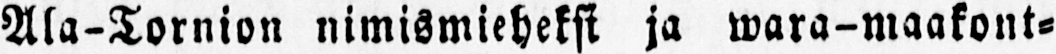Ala-Tornion nimismieheksi ja wara-maakont-
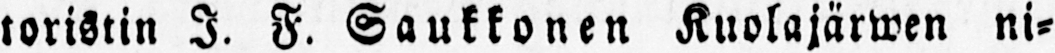toristin I. F. Saukkonen Kuolajärwen ni-
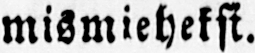mismieheksi.
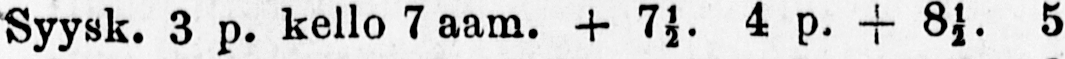Syysk. 3 p. kello 7 aam. + 7½. 4 p.+ 8½. 5
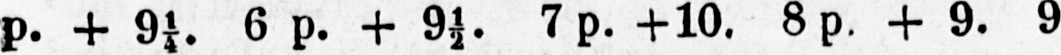p. + 9¼ . 6 p. + 9½. 7 p. + 10. 8 p. + 9. 9
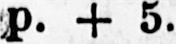p. + 5.
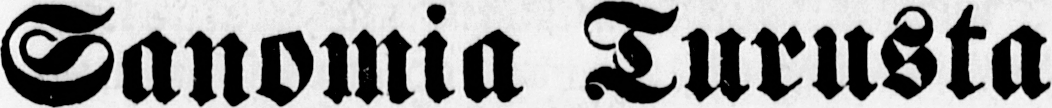Sanomia Turusta
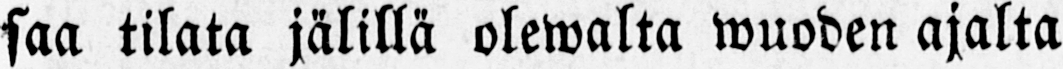saa tilata jälillä olewalta wuoden ajalta
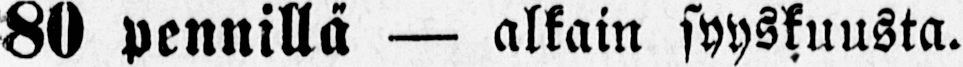80 pennillä — alkain syyskuusta.
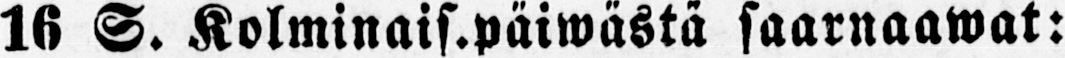16 S. Kolminais.päiwästä saarnaawat:
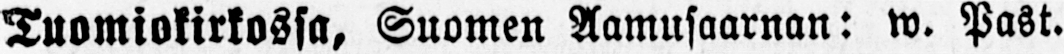Tuomiokirkossa, Suomen Aamusaarnan: w. Past.
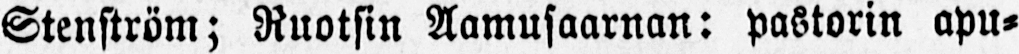Stenström; Ruotsin Aamusaarnan: pastorin apu-
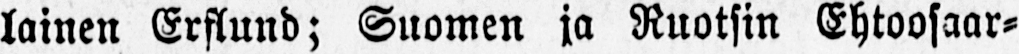lainen Erflund; Suomen ja Ruotsin Ehtoosaar-
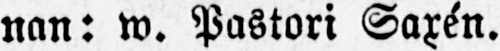nan: w. Pastori Taxén.
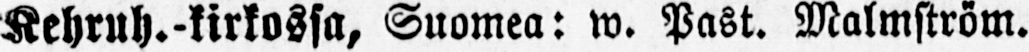Kehruh.-kirkossa, Suomea: w. Past. Malmström.
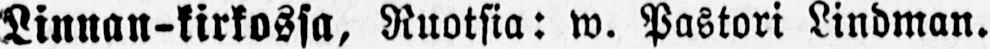Linnan-kirkossa, Ruotsia: w. Pastori Lindman.
